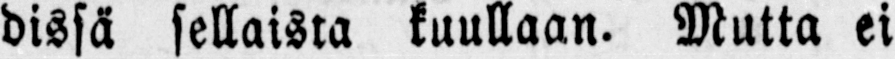dissä sellaista kuullaan. Mutta ei
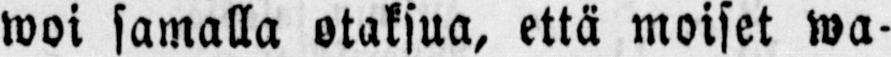woi samalla otaksua, että moiset wa-
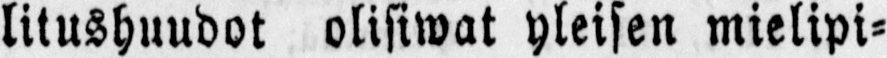litushuudot olisiwat yleisen mielipi-
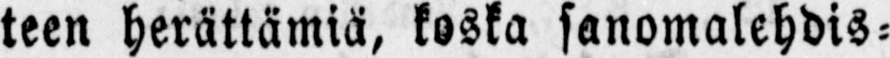teen herättämiä, koska sanomalehdis-
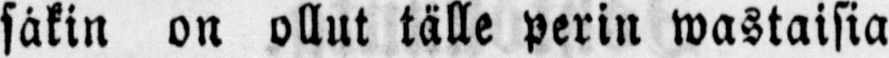säkin on ollut tälle perin wastaisia
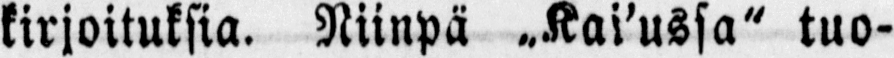kirjoituksia. Niinpä „Kai'ussa" tuo-
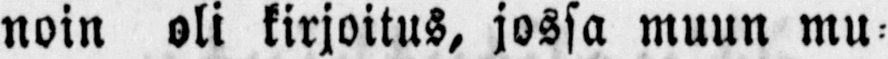noin oli kirjoitus, jossa muun mu-
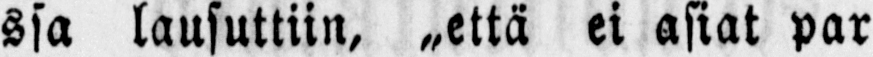ssa lausuttiin, „että ei asiat par
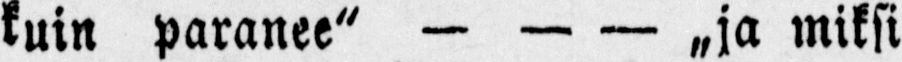kuin paranee" — — — „ja miksi
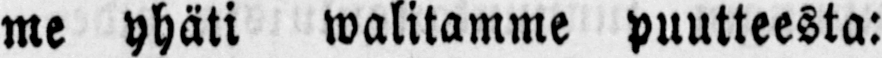me yhäti walitamme puutteesta:
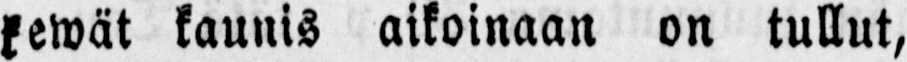kewät kaunis aikoinaan on tullut,
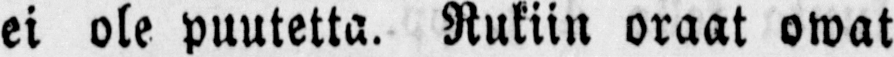ei ole puutetta. Rukiin oraat owat
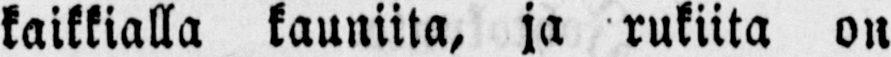kaikkialla kauniita, ja rukiita on
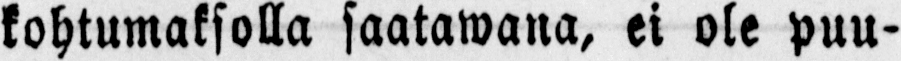kohtumaksolla saatawana, ei ole puu-
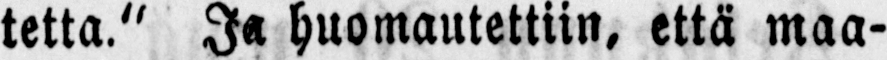tetta." Ja huomautettiin, että maa-
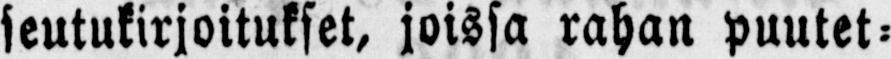seutukirjoitukset, joissa rahan puutet-
